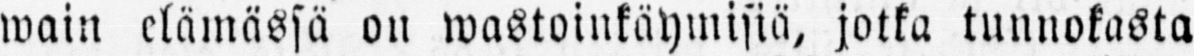wain elämässä on wastoinkäymisiä, jotka tunnokasta
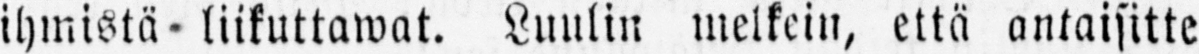ihmistä-liikuttawat. Luulin melkein, että antaisitte
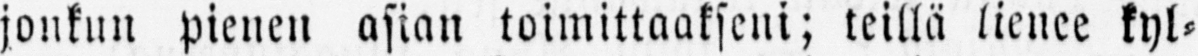jonkun pienen asian toimittaakseni; teillä lienee kyl-
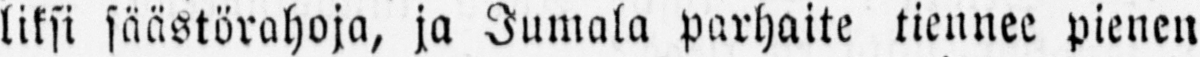liksi säästörahoja, ja Jumala parhaite tiennee pienen
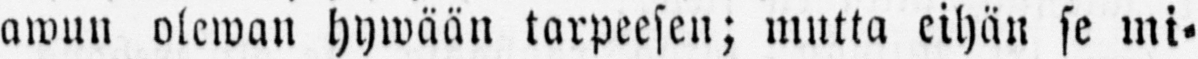awun olewan hywään tarpeesen; mutta eihän se mi-
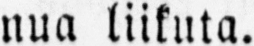nua liikuta.
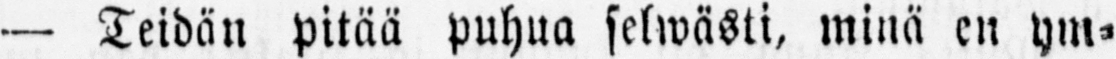— Teidän pitää puhua selwästi, minä en ym-
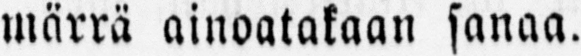märrä ainoatakaan sanaa.
